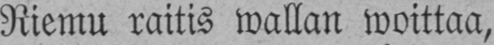Riemu raitis wallan woittaa,
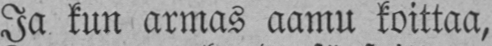Ja kun armas aamu koittaa,
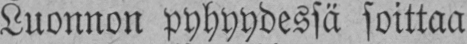Luonnon pyhyydessä soittaa
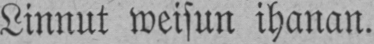Linnut weisun ihanan.
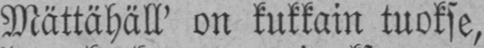Mättähäll' on kukkain tuokse,
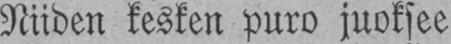Niiden kesken puro juoksee
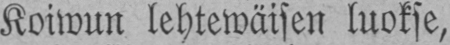Koiwun lehtewäisen luokse,
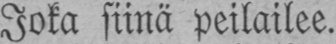Joka siinä peilailee.
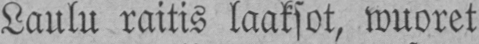Laulu raitis laaksot, wuoret
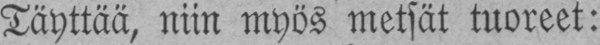Täyttää, niin myös metsät tuoreet:
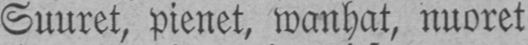Suuret, pienet, wanhat, nuoret
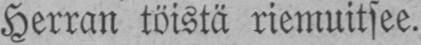Herran töistä riemuitsee.
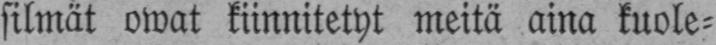silmät owat kiinnitetyt meitä aina kuole-
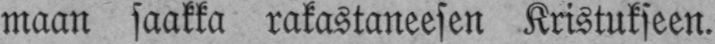maan saakka rakastaneesen Kristukseen.
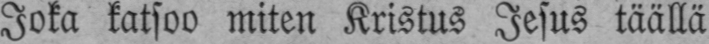Joka katsoo miten Kristus Jesus täällä
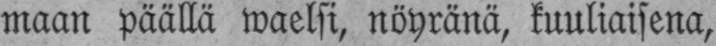maan päällä waelsi, nöyränä, kuuliaisena,
